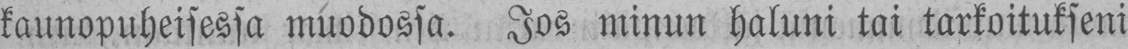kaunopuheisessa muodossa. Jos minun haluni tai tarkoitukseni
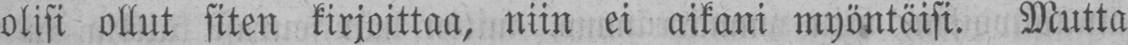olisi ollut siten kirjoittaa, niin ei aikani myöntäisi. Mutta
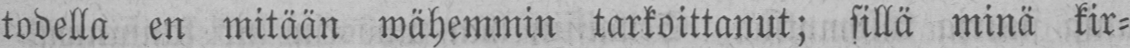todella en mitään wähemmin tarkoittanut; sillä minä kir-
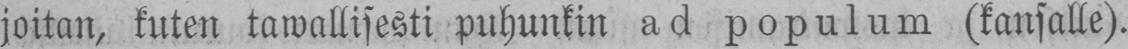joitan, kuten tawallisesti puhunkin ad populum (kansalle).
